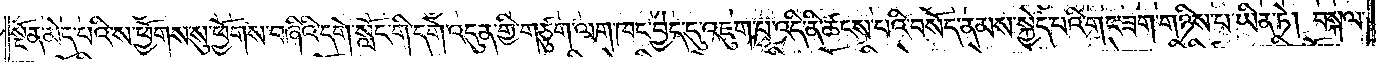སྔོན་མེད་པའི་ས་ཕྱོགས་སུ་ཕྱོགས་བཞིའི་དགེ་སློང་གི་དགེ་འདུན་གྱི་གཙུག་ལག་ཁང་བྱེད་དུ་འཇུག་པ་འདི་ནི་ཚངས་པའི་བསོད་ནམས་སྐྱེད་པའི་གང་ཟག་གཉིས་པ་ཡིན་ཏེ། བསྐལ་
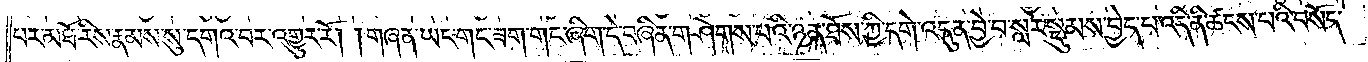པར་མཐོ་རིས་རྣམས་སུ་དགའ་བར་འགྱུར་རོ། །གཞན་ཡང་གང་ཟག་གང་ཞིག་དེ་བཞིན་གཤེགས་པའི་ཉན་ཐོས་ཀྱི་དགེ་འདུན་བྱེ་བ་སླར་སྡུམས་བྱེད་པ་འདི་ནི་ཚངས་པའི་བསོད་
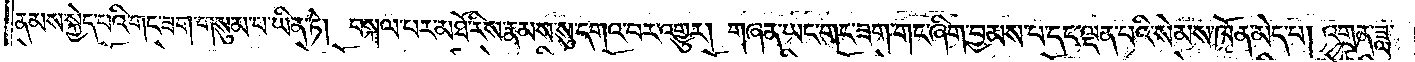ནམས་སྐྱེད་པའི་གང་ཟག་གསུམ་པ་ཡིན་ཏེ། བསྐལ་པར་མཐོ་རིས་རྣམས་སུ་དགའ་བར་འགྱུར། གཞན་ཡང་གང་ཟག་གང་ཞིག་བྱམས་པ་དང་ལྡན་པའི་སེམས་ཁོ་ན་མེད་པ། འགྲན་ཟླ་
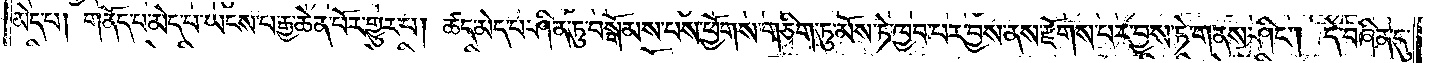མེད་པ། གནོད་པ་མེད་པ་ཡངས་པ་རྒྱ་ཆེན་པོར་གྱུར་པ། ཚད་མེད་པ་ཤིན་ཏུ་བསྒོམས་པས་ཕྱོགས་གཅིག་ཏུ་མོས་ཏེ་ཁྱབ་པར་བྱས་ནས་རྫོགས་པར་བྱས་ཏེ་གནས་ཤིང༌། དེ་བཞིན་དུ་
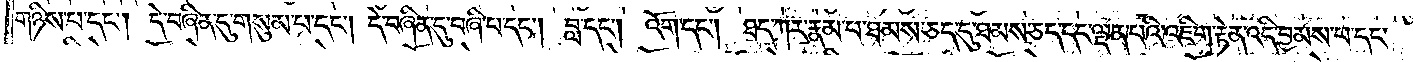གཉིས་པ་དང༌། དེ་བཞིན་དུ་གསུམ་པ་དང༌། དེ་བཞིན་དུ་བཞི་པ་དང༌། བླ་དང༌། འོག་དང༌། ཐད་ཀར་རྣམ་པ་ཐམས་ཅད་དུ་ཐམས་ཅད་དང་ལྡན་པའི་འཇིག་རྟེན་འདི་བྱམས་པ་དང་
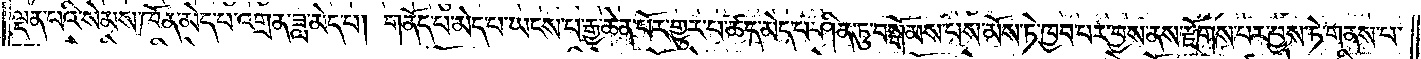ལྡན་པའི་སེམས་ཁོན་མེད་པ་འགྲན་ཟླ་མེད་པ། གནོད་པ་མེད་པ་ཡངས་པ་རྒྱ་ཆེན་པོར་གྱུར་པ་ཚད་མེད་པ་ཤིན་ཏུ་བསྒོམས་པས་མོས་ཏེ་ཁྱབ་པར་བྱས་ནས་རྫོགས་པར་བྱས་ཏེ་གནས་པ་
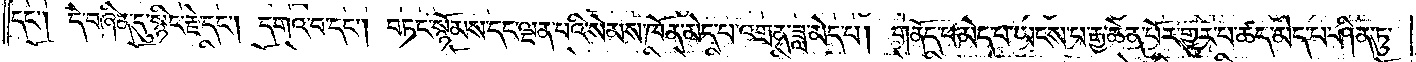དང༌། དེ་བཞིན་དུ་སྙིང་རྗེ་དང༌། དགའ་བ་དང༌། བཏང་སྙོམས་དང་ལྡན་པའི་སེམས་ཁོན་མེད་པ་འགྲན་ཟླ་མེད་པ། གནོད་པ་མེད་པ་ཡངས་པ་རྒྱ་ཆེན་པོར་གྱུར་པ་ཚད་མེད་པ་ཤིན་ཏུ་
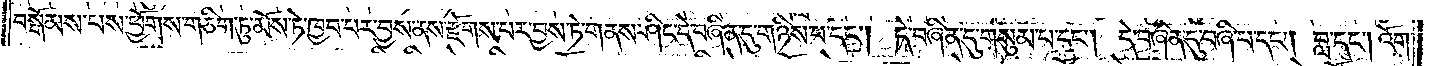བསྒོམས་པས་ཕྱོགས་གཅིག་ཏུ་མོས་ཏེ་ཁྱབ་པར་བྱས་ནས་རྫོགས་པར་བྱས་ཏེ་གནས་ཤིང་དེ་བཞིན་དུ་གཉིས་པ་དང༌། དེ་བཞིན་དུ་གསུམ་པ་དང༌། དེ་བཞིན་དུ་བཞི་པ་དང༌། བླ་དང༌། འོག་
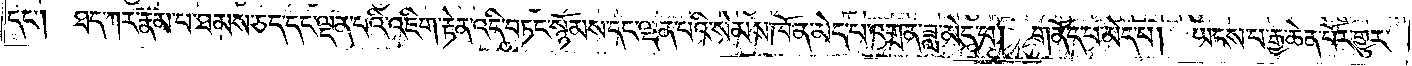དང༌།   ཐད་ཀར་རྣམ་པ་ཐམས་ཅད་དང་ལྡན་པའི་འཇིག་རྟེན་འདི་བཏང་སྙོམས་དང་ལྡན་པའི་སེམས་ཁོན་མེད་པ་འགྲན་ཟླ་མེད་པ། གནོད་པ་མེད་པ། ཡངས་པ་རྒྱ་ཆེན་པོར་གྱུར་
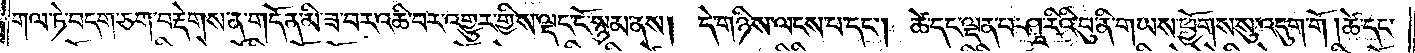གལ་ཏེ་བདག་ཅག་བརྡེགས་ན་གདོན་མི་ཟ་བར་འཆི་བར་འགྱུར་གྱིས་ལྡང་ངོ་སྙམ་ནས། དེ་གཉིས་ལངས་པ་དང༌། ཚེ་དང་ལྡན་པ་ཤཱ་རིའི་བུ་ནི་གཡས་ཕྱོགས་སུ་འདུག་གོ །ཚེ་དང་
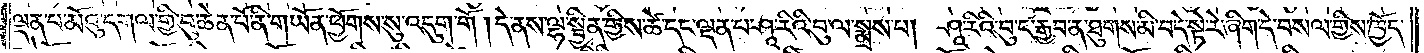ལྡན་པ་མོའུ་དགལ་གྱི་བུ་ཆེན་པོ་ནི་གཡོན་ཕྱོགས་སུ་འདུག་གོ །དེ་ནས་ལྷ་སྦྱིན་གྱིས་ཚེ་དང་ལྡན་པ་ཤཱ་རིའི་བུ་ལ་སྨྲས་པ། ཤཱ་རིའི་བུ་ང་རྒྱབ་ན་ཐུགས་མི་བདེ་སྟེ་རེ་ཞིག་དེ་བསལ་གྱིས་ཁྱོད་
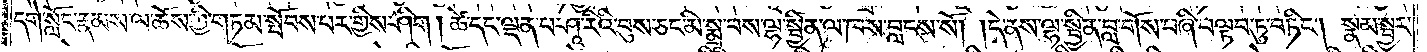དགེ་སློང་རྣམས་ལ་ཆོས་ཀྱི་གཏམ་སྤོབས་པར་གྱིས་ཤིག །ཚེ་དང་ལྡན་པ་ཤཱ་རིའི་བུས་ཅང་མི་སྨྲ་བས་ལྷ་སྦྱིན་ལ་ཁས་བླངས་སོ། །དེ་ནས་ལྷ་སྦྱིན་བླ་གོས་བཞི་བལྟབ་ཏུ་བཏིང༌། སྣམ་སྦྱར་
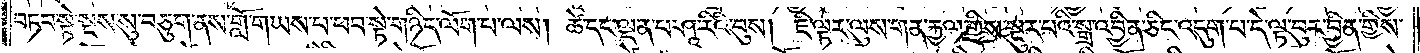བཏབ་སྟེ་སྔས་སུ་བཅུག་ནས་གློ་གཡས་པ་ཕབ་སྟེ་གཉིད་ལོག་པ་ལས། ཚེ་དང་ལྡན་པ་ཤཱ་རིའི་བུས། ཇི་ལྟར་ལུས་གན་རྐྱལ་གྱིས་སྔུར་བའི་སྒྲ་འབྱིན་ཅིང་འདུག་པ་དེ་ལྟ་བུར་བྱིན་གྱིས་
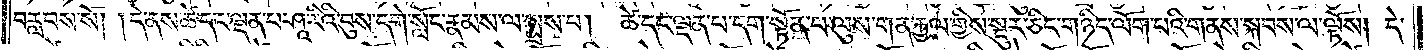བརླབས་སོ། །དེ་ནས་ཚེ་དང་ལྡན་པ་ཤཱ་རིའི་བུས་དགེ་སློང་རྣམས་ལ་སྨྲས་པ། ཚེ་དང་ལྡན་པ་དག་སྟོན་པ་ལུས་གན་རྐྱལ་གྱིས་སྔུར་ཅིང་གཉིད་ལོག་པའི་གནས་སྐབས་ལ་ལྟོས། དེ་
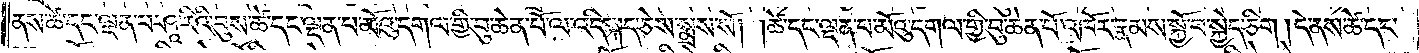ནས་ཚེ་དང་ལྡན་པ་ཤཱ་རིའི་བུས་ཚེ་དང་ལྡན་པ་མོའུ་དགལ་གྱི་བུ་ཆེན་པོ་ལ་འདི་སྐད་ཅེས་སྨྲས་སོ། །ཚེ་དང་ལྡན་པ་མོའུ་དགལ་གྱི་བུ་ཆེན་པོ་འཁོར་རྣམས་སྐྱོ་བ་སྐྱེད་ཅིག །དེ་ནས་ཚེ་དང་
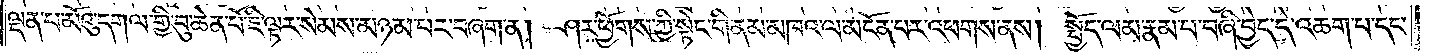ལྡན་པ་མོའུ་དགལ་གྱི་བུ་ཆེན་པོ་ཇི་ལྟར་སེམས་མཉམ་པར་བཞག་ན། ཤར་ཕྱོགས་ཀྱི་སྟེང་གི་ནམ་མཁའ་ལ་མངོན་པར་འཕགས་ནས། སྤྱོད་ལམ་རྣམ་པ་བཞི་བྱེད་དེ་འཆག་པ་དང་
